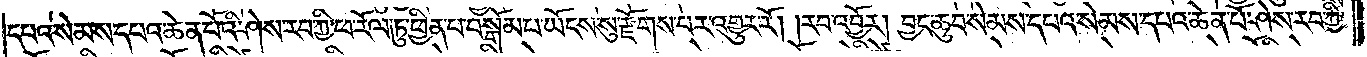དཔའ་སེམས་དཔའ་ཆེན་པོའི་ཤེས་རབ་ཀྱི་ཕ་རོལ་ཏུ་ཕྱིན་པ་བསྒོམ་པ་ཡོངས་སུ་རྫོགས་པར་འགྱུར་རོ། །རབ་འབྱོར། བྱང་ཆུབ་སེམས་དཔའ་སེམས་དཔའ་ཆེན་པོ་ཤེས་རབ་ཀྱི་
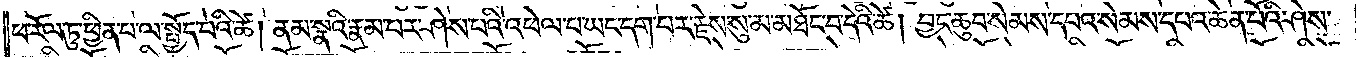ཕ་རོལ་ཏུ་ཕྱིན་པ་ལ་སྤྱོད་པའི་ཚེ། ནམ་སྣའི་རྣམ་པར་ཤེས་པའི་འཕེལ་པ་ཡང་དག་པར་རྗེས་སུ་མ་མཐོང་བ་དེའི་ཚེ། བྱང་ཆུབ་སེམས་དཔའ་སེམས་དཔའ་ཆེན་པོའི་ཤེས་
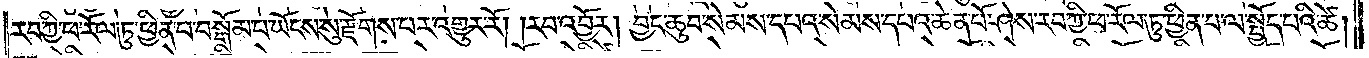རབ་ཀྱི་ཕ་རོལ་ཏུ་ཕྱིན་པ་བསྒོམ་པ་ཡོངས་སུ་རྫོགས་པར་འགྱུར་རོ། །རབ་འབྱོར། བྱང་ཆུབ་སེམས་དཔའ་སེམས་དཔའ་ཆེན་པོ་ཤེས་རབ་ཀྱི་ཕ་རོལ་ཏུ་ཕྱིན་པ་ལ་སྤྱོད་པའི་ཚེ།
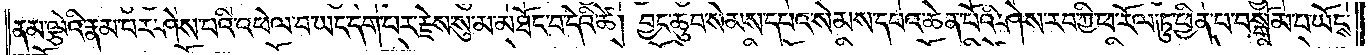ནམ་ལྕེའི་རྣམ་པར་ཤེས་པའི་འཕེལ་བ་ཡང་དག་པར་རྗེས་སུ་མ་མཐོང་བ་དེའི་ཚེ། བྱང་ཆུབ་སེམས་དཔའ་སེམས་དཔའ་ཆེན་པོའི་ཤེས་རབ་ཀྱི་ཕ་རོལ་ཏུ་ཕྱིན་པ་བསྒོམ་པ་ཡོངས་
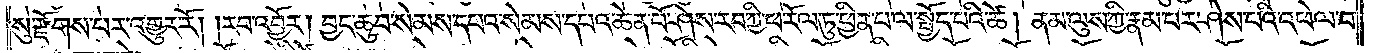སུ་རྫོགས་པར་འགྱུར་རོ། །རབ་འབྱོར། བྱང་ཆུབ་སེམས་དཔའ་སེམས་དཔའ་སེམས་དཔའ་ཆེན་པོ་ཤེས་རབ་ཀྱི་ཕ་རོལ་ཏུ་ཕྱིན་པ་ལ་སྤྱོད་པའི་ཚེ། ནམ་ལུས་ཀྱི་རྣམ་པར་ཤེས་པའི་འཕེལ་བ་
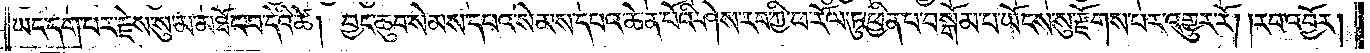ཡང་དག་པར་རྗེས་སུ་མ་མཐོང་བ་དེའི་ཚེ། བྱང་ཆུབ་སེམས་དཔའ་སེམས་དཔའ་ཆེན་པོའི་ཤེས་རབ་ཀྱི་ཕ་རོལ་ཏུ་ཕྱིན་པ་བསྒོམ་པ་ཡོངས་སུ་རྫོགས་པར་འགྱུར་རོ། །རབ་འབྱོར།
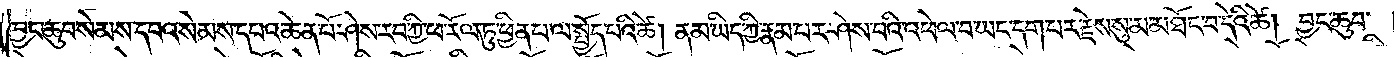བྱང་ཆུབ་སེམས་དཔའ་སེམས་དཔའ་ཆེན་པོ་ཤེས་རབ་ཀྱི་ཕ་རོལ་ཏུ་ཕྱིན་པ་ལ་སྤྱོད་པའི་ཚེ། ནམ་ཡིད་ཀྱི་རྣམ་པར་ཤེས་པའི་འཕེལ་བ་ཡང་དག་པར་རྗེས་སུ་མ་མཐོང་བ་དེའི་ཚེ། བྱང་ཆུབ་
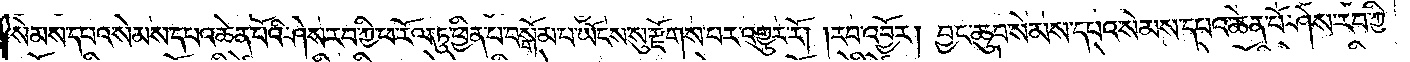སེམས་དཔའ་སེམས་དཔའ་ཆེན་པོའི་ཤེས་རབ་ཀྱི་ཕ་རོལ་ཏུ་ཕྱིན་པ་བསྒོམ་པ་ཡོངས་སུ་རྫོགས་པར་འགྱུར་རོ། །རབ་འབྱོར། བྱང་ཆུབ་སེམས་དཔའ་སེམས་དཔའ་ཆེན་པོ་ཤེས་རབ་ཀྱི་
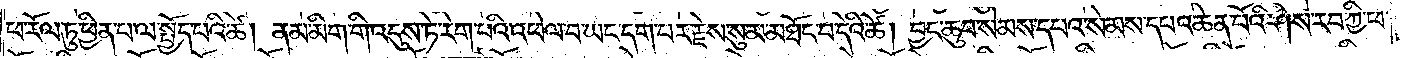ཕ་རོལ་ཏུ་ཕྱིན་པ་ལ་སྤྱོད་པའི་ཚེ། ནམ་མིག་གི་འདུས་ཏེ་རེག་པའི་འཕེལ་བ་ཡང་དག་པར་རྗེས་སུ་མ་མཐོང་བ་དེའི་ཚེ། བྱང་ཆུབ་སེམས་དཔའ་སེམས་དཔའ་ཆེན་པོའི་ཤེས་རབ་ཀྱི་ཕ་
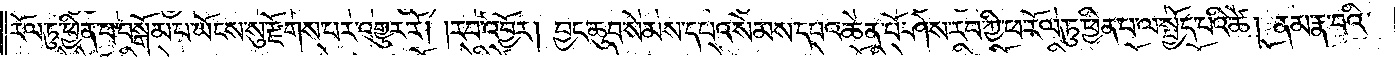རོལ་ཏུ་ཕྱིན་པ་བསྒོམ་པ་ཡོངས་སུ་རྫོགས་པར་འགྱུར་རོ། །རབ་འབྱོར། བྱང་ཆུབ་སེམས་དཔའ་སེམས་དཔའ་ཆེན་པོ་ཤེས་རབ་ཀྱི་ཕ་རོལ་ཏུ་ཕྱིན་པ་ལ་སྤྱོད་པའི་ཚེ། ནམ་རྣ་བའི་
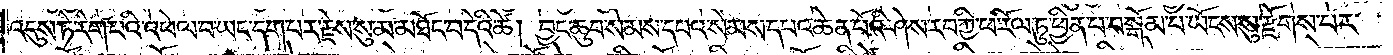འདུས་ཏེ་རེག་པའི་འཕེལ་བ་ཡང་དག་པར་རྗེས་སུ་མ་མཐོང་བ་དེའི་ཚེ། བྱང་ཆུབ་སེམས་དཔའ་སེམས་དཔའ་ཆེན་པོའི་ཤེས་རབ་ཀྱི་ཕ་རོལ་ཏུ་ཕྱིན་པ་བསྒོམ་པ་ཡོངས་སུ་རྫོགས་པར་
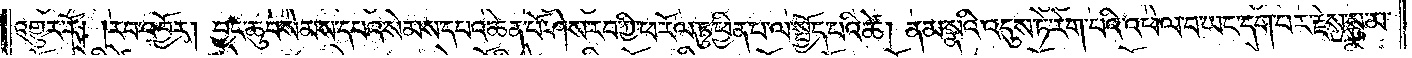འགྱུར་རོ། །རབ་འབྱོར། བྱང་ཆུབ་སེམས་དཔའ་སེམས་དཔའ་ཆེན་པོ་ཤེས་རབ་ཀྱི་ཕ་རོལ་ཏུ་ཕྱིན་པ་ལ་སྤྱོད་པའི་ཚེ། ནམ་སྣའི་འདུས་ཏེ་རེག་པའི་འཕེལ་བ་ཡང་དག་པར་རྗེས་སུ་མ་
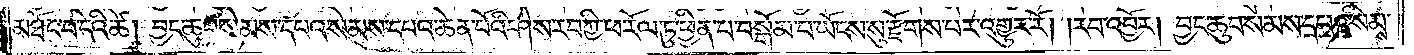མཐོང་བ་དེའི་ཚེ། བྱང་ཆུབ་སེམས་དཔའ་སེམས་དཔའ་ཆེན་པོའི་ཤེས་རབ་ཀྱི་ཕ་རོལ་ཏུ་ཕྱིན་པ་བསྒོམ་པ་ཡོངས་སུ་རྫོགས་པར་འགྱུར་རོ། །རབ་འབྱོར། བྱང་ཆུབ་སེམས་དཔའ་སེམས་
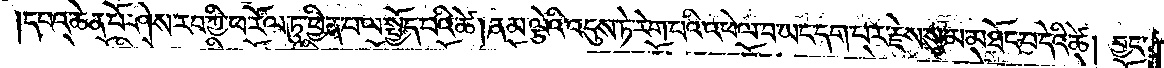དཔའ་ཆེན་པོ་ཤེས་རབ་ཀྱི་ཕ་རོལ་ཏུ་ཕྱིན་པ་ལ་སྤྱོད་པའི་ཚེ། ནམ་ལྕེའི་འདུས་ཏེ་རེག་པའི་འཕེལ་བ་ཡང་དག་པར་རྗེས་སུ་མ་མཐོང་བ་དེའི་ཚེ། བྱང་
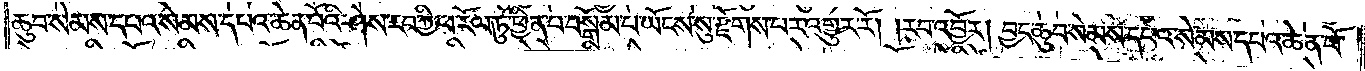ཆུབ་སེམས་དཔའ་སེམས་དཔའ་ཆེན་པོའི་ཤེས་རབ་ཀྱི་ཕ་རོལ་ཏུ་ཕྱིན་པ་བསྒོམ་པ་ཡོངས་སུ་རྫོགས་པར་འགྱུར་རོ། །རབ་འབྱོར། བྱང་ཆུབ་སེམས་དཔའ་སེམས་དཔའ་ཆེན་པོ་
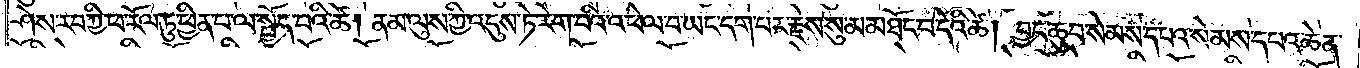ཤེས་རབ་ཀྱི་ཕ་རོལ་ཏུ་ཕྱིན་པ་ལ་སྤྱོད་པའི་ཚེ། ནམ་ལུས་ཀྱི་འདུས་ཏེ་རེག་པའི་འཕེལ་བ་ཡང་དག་པར་རྗེས་སུ་མ་མཐོང་བ་དེའི་ཚེ། བྱང་ཆུབ་སེམས་དཔའ་སེམས་དཔའ་ཆེན་
